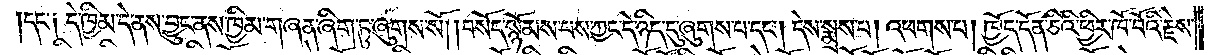དང་༑  དེ་ཁྱིམ་དེ་ནས་བྱུང་ནས་ཁྱིམ་གཞན་ཞིག་ཏུ་ཞུགས་སོ། །བསོད་སྙོམས་པས་ཀྱང་དེ་ཉིད་དུ་ཞུགས་པ་དང༌། དེས་སྨྲས་པ། འཕགས་པ། ཁྱོད་དོན་ཅིའི་ཕྱིར་ཁོ་བོའི་རྗེས་
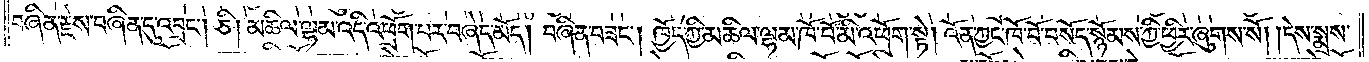བཞིན་རྗེས་བཞིན་དུ་འབྲང༌། ཅི། མཆིལ་ལྷམ་འདི་འཕྲོག་པར་བཞེད་མོད། བཞིན་བཟང༌། ཁྱོད་ཀྱི་མཆིལ་ལྷམ་ཁོ་བོ་མི་འཕྲོག་སྟེ། འོན་ཀྱང་ཁོ་བོ་བསོད་སྙོམས་ཀྱི་ཕྱིར་ཞུགས་སོ། །དེས་སྨྲས་
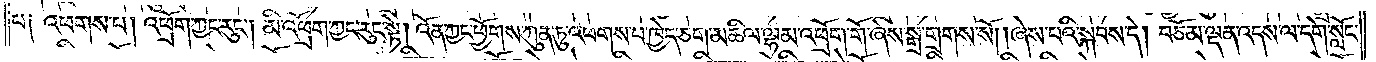པ༑  འཕགས་པ། འཕྲོག་ཀྱང་རུང༌། མི་འཕྲོག་ཀྱང་རུང་སྟེ། འོན་ཀྱང་ཕྱོགས་ཀུན་ཏུ་འཕགས་པ་ཁྱེད་ཅག་མཆིལ་ལྷམ་འཕྲོག་གོ་ཞེས་སྒྲ་གྲགས་སོ། །ཞེས་པའི་སྐབས་དེ། བཅོམ་ལྡན་འདས་ལ་དགེ་སློང་
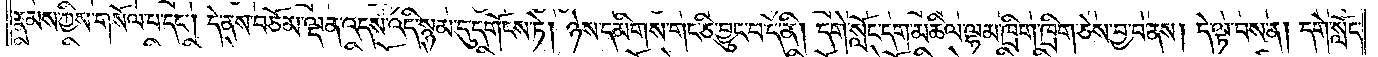རྣམས་ཀྱིས་གསོལ་པ་དང༌། དེ་ནས་བཅོམ་ལྡན་འདས་འདི་སྙམ་དུ་དགོངས་ཏེ། ཉེས་དམིགས་གང་ཅི་བྱུང་བ་དེ་ནི། དགེ་སློང་དག་མཆིལ་ལྷམ་ཁྲིག་ཁྲིག་ཅེས་བྱ་བ་ནས། དེ་ལྟ་བས་ན། དགེ་སློང་
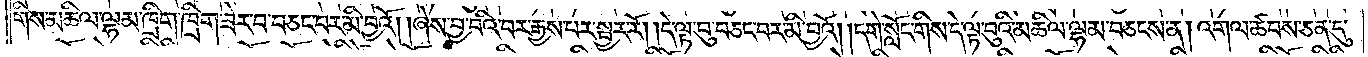གིས་མཆིལ་ལྷམ་ཁྲིག་ཁྲིག་ཟེར་བ་བཅང་བར་མི་བྱའོ། །ཞེས་བྱ་བའི་བར་རྒྱས་པར་སྦྱར་རོ། །དེ་ལྟ་བུ་བཅང་བར་མི་བྱའོ། །དགེ་སློང་གིས་དེ་ལྟ་བུའི་མཆིལ་ལྷམ་བཅངས་ན། འགལ་ཚབས་ཅན་དུ་
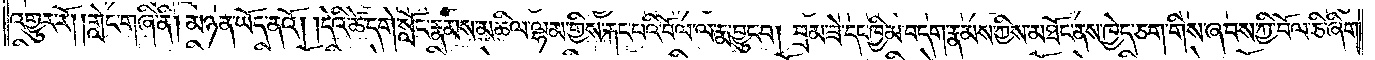འགྱུར་རོ། །གླེང་གཞི་ནི། མཉན་ཡོད་ནའོ། །དེའི་ཚེ་དགེ་སློང་རྣམས་མཆིལ་ལྷམ་གྱིས་རྐང་པའི་བོལ་ལ་རྨ་བྱུང་བ། བྲམ་ཟེ་དང་ཁྱིམ་བདག་རྣམས་ཀྱིས་མཐོང་ནས་ཁྱེད་ཅག་གིས་ཞབས་ཀྱི་བོལ་ཅི་ཞིག་
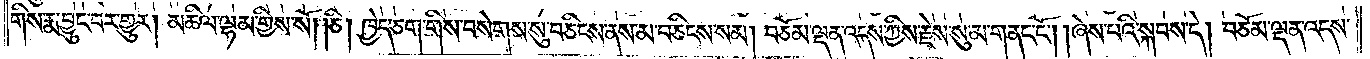གིས་རྨ་བྱུང་བར་གྱུར། མཆིལ་ལྷམ་གྱིས་སོ། །ཅི། ཁྱེད་ཅག་གིས་བསེགས་སུ་བཅིངས་ནས་མ་བཅིངས་སམ། བཅོམ་ལྡན་འདས་ཀྱིས་རྗེས་སུ་མ་གནང་ངོ༌། །ཞེས་པའི་སྐབས་དེ། བཅོམ་ལྡན་འདས་
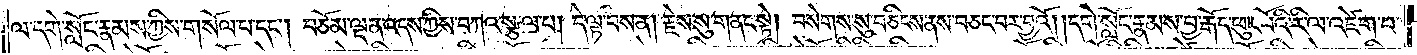ལ་དགེ་སློང་རྣམས་ཀྱིས་གསོལ་པ་དང༌། བཅོམ་ལྡན་འདས་ཀྱིས་བཀའ་སྩལ་པ། དེ་ལྟ་བས་ན། རྗེས་སུ་གནང་སྟེ། བསེགས་སུ་བཅིངས་ནས་བཅང་བར་བྱའོ། །དགེ་སློང་རྣམས་བྱ་རྒོད་ཕུང་པོའི་རི་ལ་འཛེག་པ་
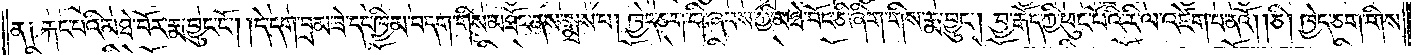ན༑  རྐང་པའི་མཐེ་བོར་རྨ་བྱུང་ངོ༌། །དེ་དག་བྲམ་ཟེ་དང་ཁྱིམ་བདག་གིས་མཐོང་ནས་སྨྲས་པ། ཁྱེད་ཅག་གི་ཞབས་ཀྱི་མཐེ་བོང་ཅི་ཞིག་གིས་རྨ་བྱུང༌། བྱ་རྒོད་ཀྱི་ཕུང་པོའི་རི་ལ་འཛེག་པ་ནའོ། །ཅི། ཁྱེད་ཅག་གིས་
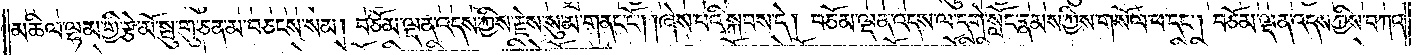མཆིལ་ལྷམ་གྱི་རྩེ་མོ་སྤུ་གུ་ཅན་མ་བཅངས་སམ། བཅོམ་ལྡན་འདས་ཀྱིས་རྗེས་སུ་མ་གནང་ངོ༌། །ཞེས་པའི་སྐབས་དེ། བཅོམ་ལྡན་འདས་ལ་དགེ་སློང་རྣམས་ཀྱིས་གསོལ་པ་དང༌། བཅོམ་ལྡན་འདས་ཀྱིས་བཀའ་
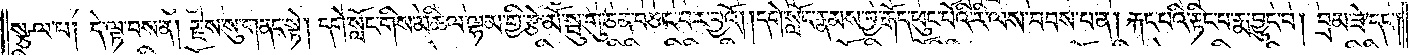སྩལ་པ། དེ་ལྟ་བས་ན། རྗེས་སུ་གནང་སྟེ། དགེ་སློང་གིས་མཆིལ་ལྷམ་གྱི་རྩེ་མོ་སྤུ་གུ་ཅན་བཅང་བར་བྱའོ། །དགེ་སློང་རྣམས་བྱ་རྒོད་ཕུང་པོའི་རི་ལས་བབས་པ་ན། རྐང་པའི་རྟིང་པ་རྨ་བྱུང་བ། བྲམ་ཟེ་དང༌།
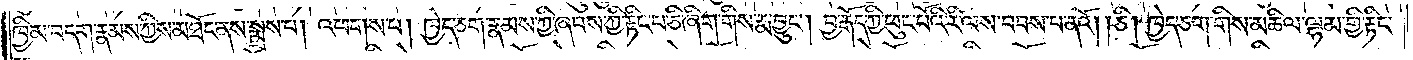ཁྱིམ་བདག་རྣམས་ཀྱིས་མཐོང་ནས་སྨྲས་པ། འཕགས་པ། ཁྱེད་ཅག་རྣམས་ཀྱི་ཞབས་ཀྱི་རྟིང་པ་ཅི་ཞིག་གིས་རྨ་བྱུང༌། བྱ་རྒོད་ཀྱི་ཕུང་པོའི་རི་ལས་བབས་པ་ནའོ། །ཅི། ཁྱེད་ཅག་གིས་མཆིལ་ལྷམ་གྱི་རྟིང་
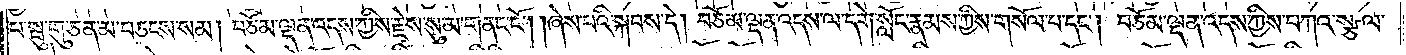པ་སྦུ་གུ་ཅན་མ་བཅངས་སམ། བཅོམ་ལྡན་འདས་ཀྱིས་རྗེས་སུ་མ་གནང་ངོ༌། །ཞེས་པའི་སྐབས་དེ། བཅོམ་ལྡན་འདས་ལ་དགེ་སློང་རྣམས་ཀྱིས་གསོལ་པ་དང༌། བཅོམ་ལྡན་འདས་ཀྱིས་བཀའ་སྩལ་
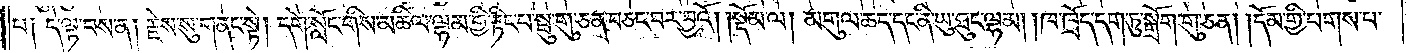པ། དེ་ལྟ་བས་ན། རྗེས་སུ་གནང་སྟེ། དགེ་སློང་གིས་མཆིལ་ལྷམ་གྱི་རྟིང་པ་སྤུ་གུ་ཅན་བཅང་བར་བྱའོ།    །སྡོམ་ལ། མགུལ་ཆད་དང༌། ནི་ཡུ་ཐུང་ལྷམ། །ཁ་ཁྲོད་དག་ཏུ་སྒྲོག་གུ་ཅན། །དོམ་གྱི་པགས་པ་
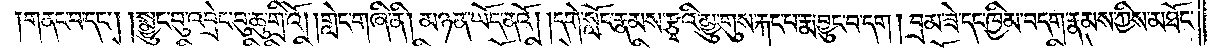གནང་བ་དང༌། །སྨྱུང་བུ་འབྲེང་བུ་ཆུ་གྲིའོ། །གླེང་གཞི་ནི། མཉན་ཡོད་ནའོ། །དགེ་སློང་རྣམས་རྩྭའི་མྱུ་གུས་རྐང་པ་རྨ་བྱུང་བ་དག །བྲམ་ཟེ་དང་ཁྱིམ་བདག་རྣམས་ཀྱིས་མཐོང་
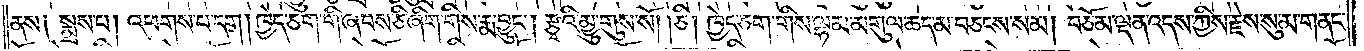ནས༑ སྨྲས་པ། འཕགས་པ་དག །ཁྱེད་ཅག་གི་ཞབས་ཅི་ཞིག་གིས་རྨ་བྱུང༌། རྩྭའི་མྱུ་གུས་སོ། །ཅི། ཁྱེད་ཅག་གིས་ལྷམ་མགུལ་ཆད་མ་བཅངས་སམ། བཅོམ་ལྡན་འདས་ཀྱིས་རྗེས་སུ་མ་གནང་
